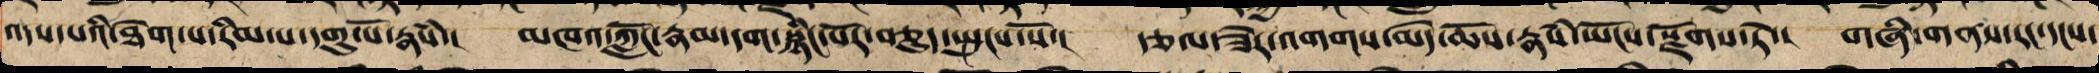འདས་པའི་ཐེག་པ་རིམ་པ་དགུ་པོ་རྣཾས་། མཁའ་ཀློང་རྣམ་དག་སྙིང་པོ་བཅུད་སྤུངས་སུ་། རྩལ་ཟེར་འགག་མེད་ཆོས་རྣམས་ཡོངས་སྫོགས་ཏེ་། གཞི་གནས་རང་དངས་
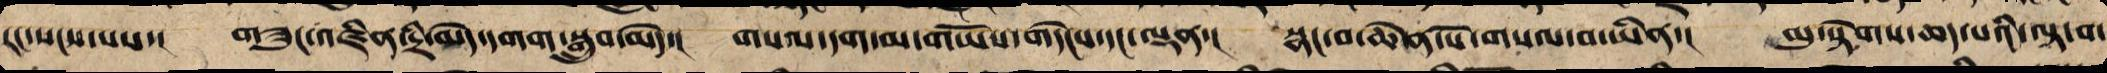རང་སངས་པས་། གཟུང་འཛིན་དྲི་མེད་དགག་སྒྲུབ་མེད་། གསལ་དག་མ་གཡོས་གདེང་དང་ལྡན་། སྣང་བ་ཆེན་པོ་གསལ་བ་ཡིན་། མུ་སྟེགས་ཆད་པའི་ལྟ་བ་
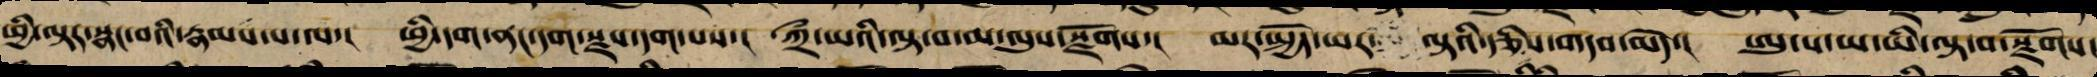ཕྱི་ལྟར་སྣང་བའི་རྣམས་པ་ལ་། ཕྱི་དག་ནང་དག་རྫས་དག་པས་། ཀྲྀ་ཡའི་ལྟ་བ་མ་ལུས་རྫོགས་། མར་སྤྱོད་ཡར་ ལྟའི་རྩིས་གདབ་མེད་། ཨུ་པ་ཡ་ཡི་ལྟ་བ་སྫོགས་
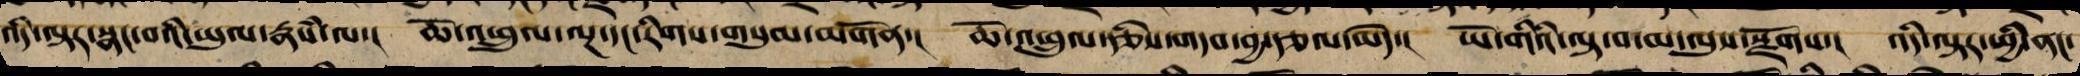འདི་ལྟར་སྣང་བའི་ཡུལ་རྣཾས་ལ་། ཆོ་འཕྲུལ་ལྔ་དང་རིགས་གསུམ་མགོན་། ཆོ་འཕྲུལ་རྩིས་གདབ་བྱ་རྩོལ་མེད་། ཡོ་གའི་ལྟ་བ་མ་ལུས་སྫོགས་། འདི་ལྟར་ཕྱི་ནང་
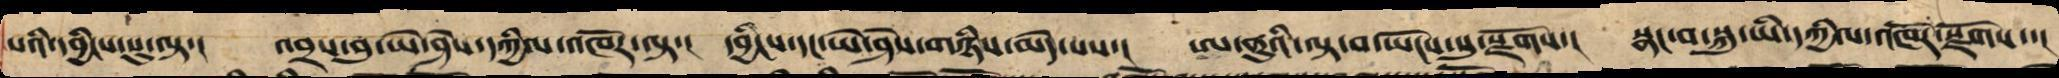པའི་དབྱིངས་སུ་ལྟ་། འབྲས་བུ་ཡེ་ཤེས་དཀྱིལ་འཁོར་ལྟ་། དབྱིངས་དང་ཡེ་ཤེས་གཉིས་མེད་པས་། ཨ་ནུའི་ལྟ་བ་ཡོངས་སུ་སྫོགས་། སྣང་བ་སྐུ་ཡི་དཀྱིལ་འཁོར་སྫོགས་་།
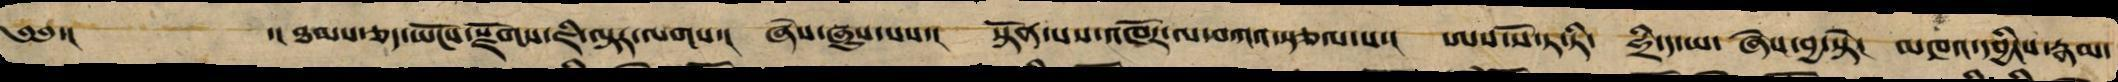༄༅་། ་།ཐམས་ཅད་ཡོངས་རྫོགས་ཇི་ལྟར་ལགས་། ཞེས་ཞུས་པས་། སྟོན་པས་འཁོར་ལ་བཀའ་སྩལ་པ་། ཨས་སོ་ཏ་ཏི་ ཧྲི་ད་ཡ་ ཞེས་བྱ་སྟེ། མཁའ་དབྱིངས་རྣམ་
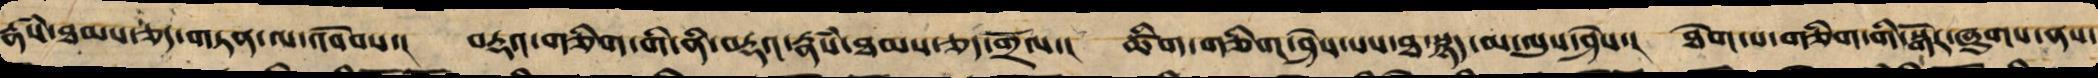རྣཾས་ཐམས་ཅད་གཏན་ལ་འབེབས་། བརྡའ་གཅིག་གི་ནི་བརྡའ་རྣཾས་ཐམས་ཅད་གྲོལ་། ཚིག་གཅིག་ཤེས་པས་ཐ་སྙད་མ་ལུས་ཤེས་། ཐེག་པ་གཅིག་གི་སྒོར་ཞུགས་ནས་
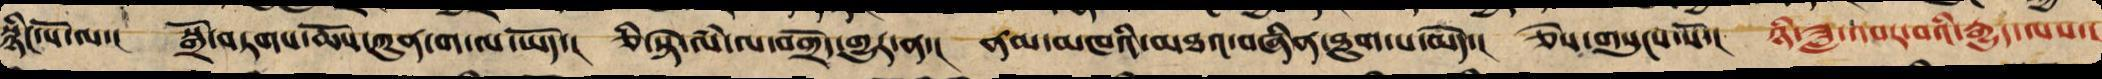སྙིང་པོ་ལ་། སྒྲོ་བཏགས་ཆོས་ཀུན་ག་ལ་ཡོད་། ཅི་སྟེ་ལཾ་ལ་བགྲོད་གྱུར་ན་། ནམ་མཁའི་མཐའ་བཞིན་ཐུག་པ་མེད་། ཅེས་གསུངས་སོ་། ཉི་ཟླ་འབར་བའི་རྒྱུད་ལས་།
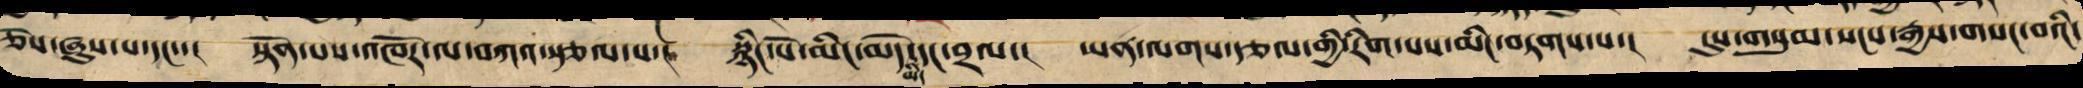ཞེས་ཞུས་པ་དང་། སྟོན་པས་འཁོར་ལ་བཀའ་སྩལ་པ། སྙིང་པོ་མིང་མེད་མིང་དང་བྲལ། ཡན་ལག་རྩལ་གྱི་རིག་པས་མིང་བཏགས་པ། དུས་གསུམ་སངས་རྒྱས་གསང་བའི་
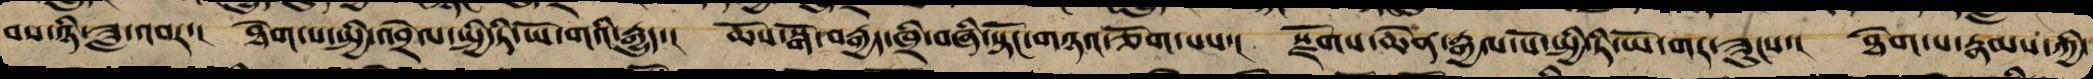བས་ཉི་ཟླ་འབར་། ཐེག་པ་སྤྱི་འབྲེལ་སྤྱི་ཏི་ཡོ་གའི་རྒྱུད་། ཆོས་སྒོ་བརྒྱད་ཁྲི་བཞི་སྟོང་གཉའ་ཅོག་པས་། སྫོགས་ཆེན་རྒྱལ་པོ་སྤྱི་ཏི་ཡོ་གར་ཟུངས་། ཐེག་པ་རྣམས་ཀྱི་
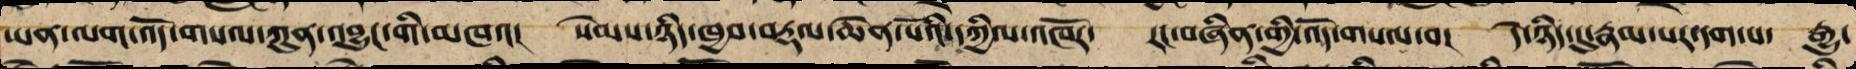ཡན་ལག་འོད་གསལ་ཀུན་འབྱུང་གི་མཁའ། སེམས་ཉིད་ཁྱབ་བརྡལ་ཆེན་པོའི་དཀྱིལ་འཁོར་ རང་བཞིན་གྱི་འོད་གསལ་བ། དེ་ཉིད་དུ་རྣམ་པར་དག་པ་ རྒྱུ་
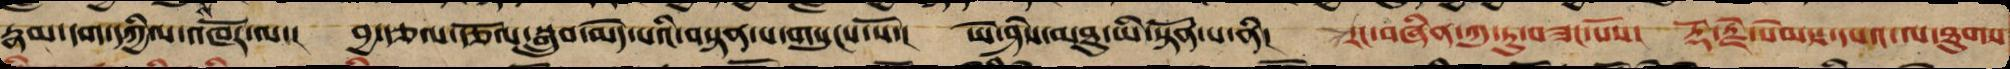རྣམ་དག་དཀྱིལ་འཁོར་ལ་། བྱ་རྩལ་རྩོལ་སྒྲུབ་མེད་པའི་བསྟན་པ་གསུངས་སོ་། ཡེ་ཤེས་མཐུ་ཡི་སྟོན་པ་ནི། རང་བཞིན་ཀུ་ཏུ་བཟང་པོས། རྡོ་རྗེ་སེམས་དཔའ་ལ་ཐུགས་
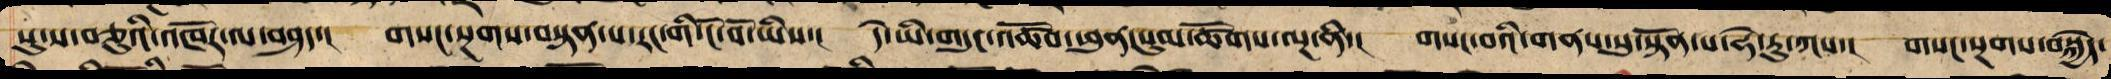སུ་ས་བཅུའི་འཁོར་ལ་བཤད་། གསང་སྔགས་བསྟན་པ་རང་གི་ངོ་བོ་ཡིས་། དེ་ཡི་གདུང་འཚོབ་ཕུན་སུམ་ཚོགས་ལྔ་ནི་། གསང་བའི་གནས་སུ་སྟོན་པ་ཧེ་རུ་ཀས་། གསང་སྔགས་བསྐྱེད་
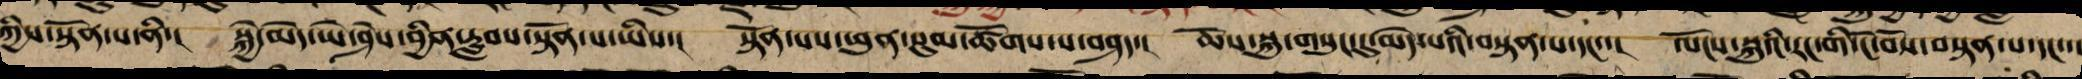ཀྱིས་སྟོན་པ་ནི་། སྐྱེ་མེད་ཡེ་ཤེས་བྱིན་རླབས་སྟོན་པ་ཡིས་། སྟོན་པ་ཕུན་སུམ་ཚོགས་པས་བཤད་། ཆོས་སྐུ་གསུང་དུ་མེད་པའི་བསྟན་པ་དང་་། ལོངས་སྐུའི་རང་གི་ངོ་བོས་བསྟན་པ་དང་་།
